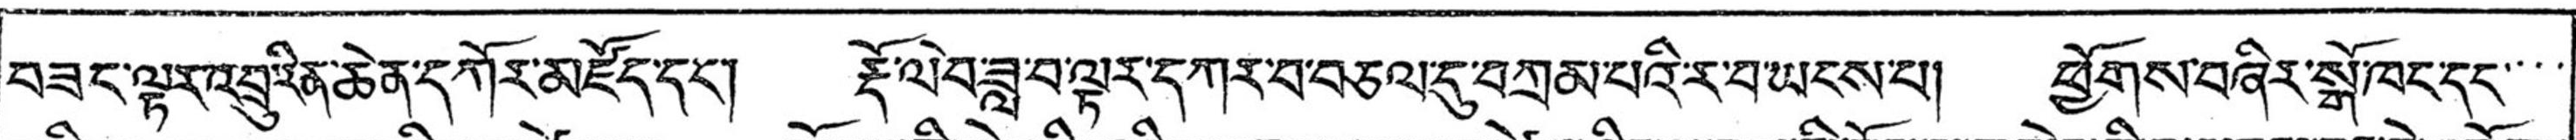བཟང་ལྟར་འབྲུ་རིན་ཆེན་དཀོར་མཛོད་དང་། རྡོ་ལེབ་ཟླ་བ་ལྟར་དཀར་བ་བཅལ་དུབཀྲམ་པའི་ར་བ་ཡངས་པ། ཕྱོགས་བཞིར་སྒོ་ཁང་དང་་་
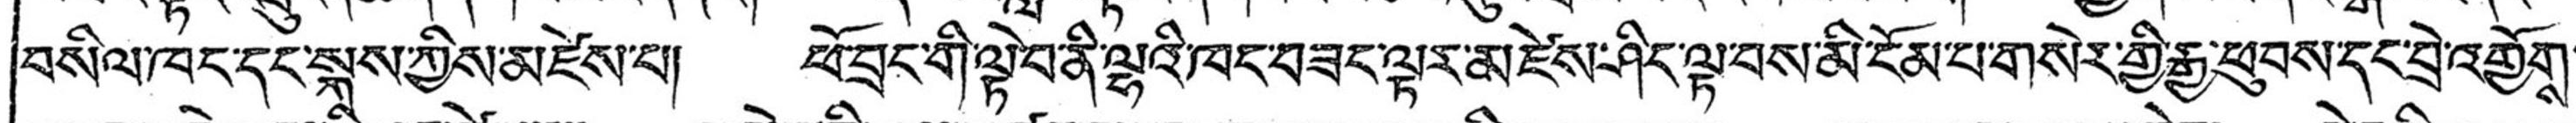བསིལ་ཁང་དང་སྐས་ཀྱིས་མཛེས་པ། ཕོ་བྲང་གི་ལྟེབ་ནི་ལྷའི་ཁང་བཟང་ལྟར་མཛེས་ཤིང་ལྟ་བས་མི་ངོམ་པ་གསེར་གྱི་རྒྱ་ཕུབས་དང་བྲེ་འགྱོགས་་
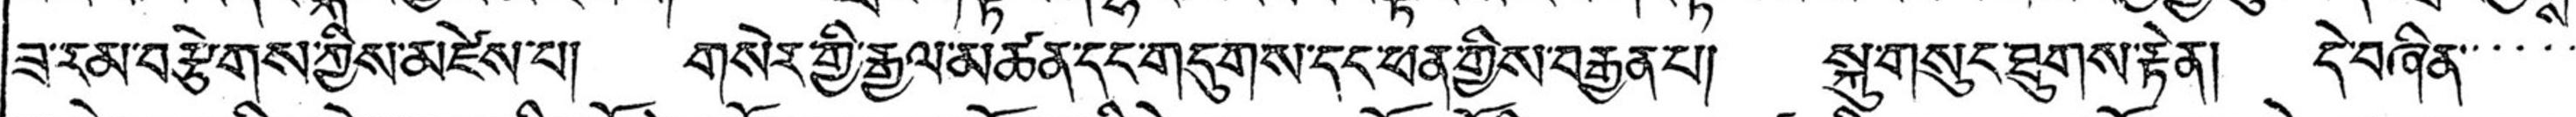ཟ་རམ་བརྩེགས་ཀྱིས་མཛེས་པ། གསེར་གྱི་རྒྱལ་མཚན་དང་གདུགས་དང་ཕན་གྱིས་བརྒྱན་པ། སྐུ་གསུང་ཐུགས་རྟེན། དེ་བཞིན་་་་་་
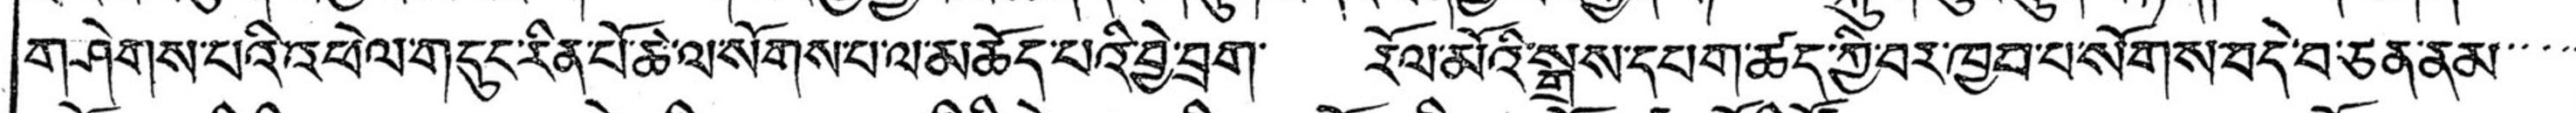གཤེགས་པའི་འཕེལ་གདུང་རིན་པོ་ཆེ་ལ་སོགས་པ་ལ་མཆོད་པའི་བྱེ་བྲག་ རོལ་མོའི་སྒྲས་དཔག་ཚད་ཀྱི་བར་ཁྱབ་པ་སོགས་བདེ་བ་ཅན་ནམ་་་་་
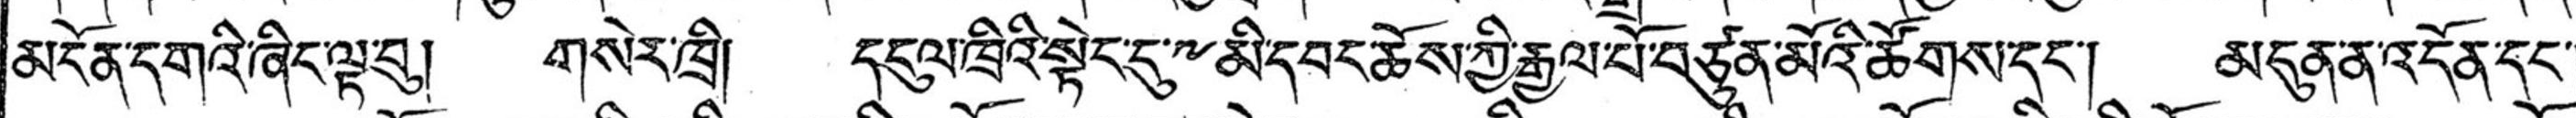མདོན་དགའི་ཞིད་ལྟ་བུ། གསེར་ཁྲི། དངུལ་ཁྲིའི་སྟེང་དུ་༸ མི་དབང་ཆོས་ཀྱི་རྒྱལ་པོ་བཙུན་མོའི་ཚོགས་དང་། མདུན་ན་འདོན་དང་།
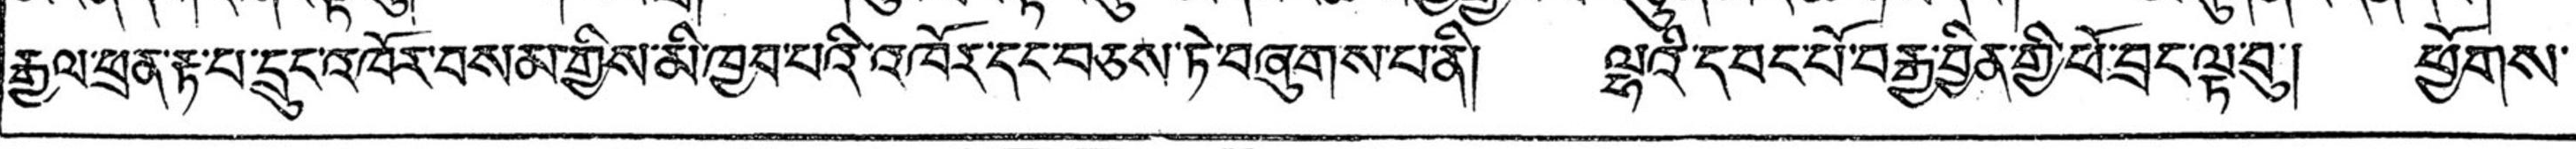རྒྱལ་ཕྲན་རྟ་པ་དྲུང་འཁོར་བསམ་གྱིས་མི་ཁྱབ་པའི་འཁོར་དང་བཅས་ཏེ་བཞུགས་པ་ནི། ལྷའི་དབང་པོ་བརྒྱ་བྱིན་གྱི་ཕོ་བྲང་ལྟ་བུ་། ཕྱོགས་་
